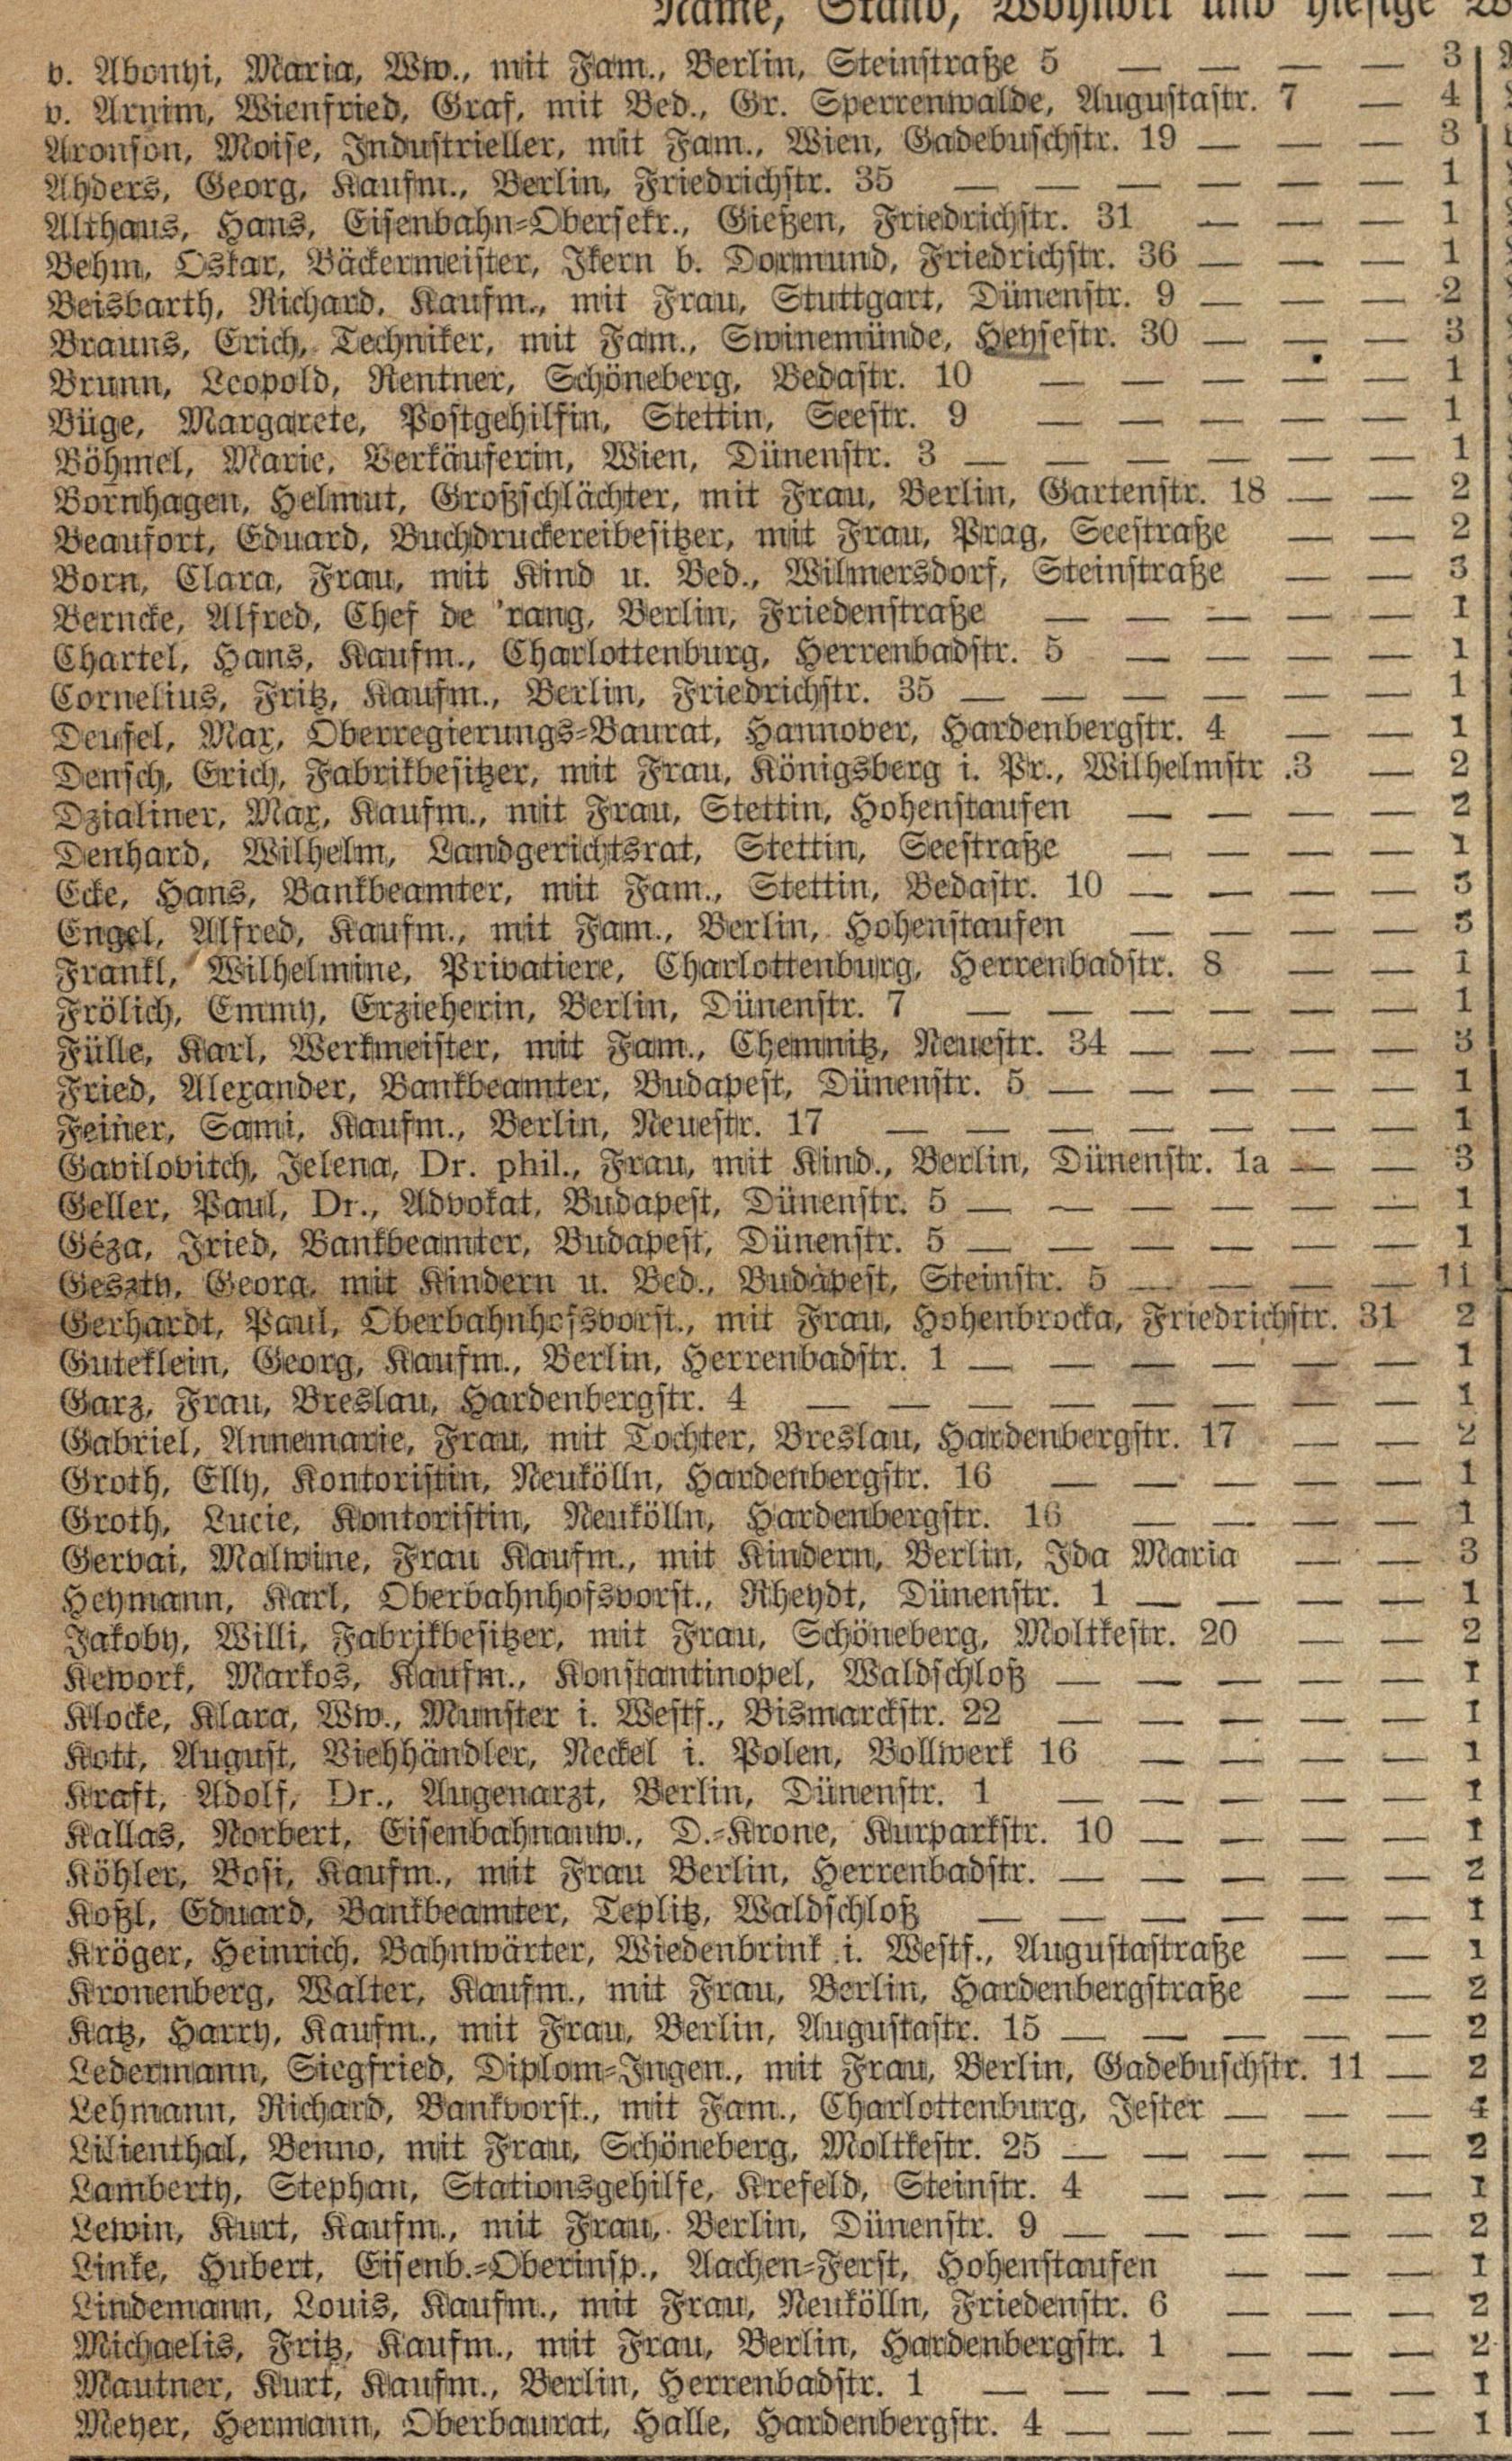v. Abonyi, Maria, Ww., mit Fam., Berlin, Steinstraße 5 | 3
v. Arnim, Wienfried, Graf, mit Bed., Gr. Sperrenwalde, Augustastr. 7 | 4
Aronson, Moise, Industrieller, mit Fam., Wien, Gadebuschstr. 19 | 3
Ahders, Georg, Kaufm., Berlin, Friedrichstr. 35 | 1
Althaus, Hans, Eisenbahn=Obersekr., Gießen, Friedrichstr. 31 | 1
Behm, Oskar, Bäckermeister, Ikern b. Dormund, Friedrichstr. 36 | 1
Beisbarth, Richard, Kaufm., mit Frau, Stuttgart, Dünenstr. 9 | 2
Brauns, Erich, Techniker, mit Fam., Swinemünde, Heysestr. 30 | 3
Brunn, Leopold, Rentner, Schöneberg, Bedastr. 10 | 1
Büge, Margarete, Postgehilfin, Stettin, Seestr. 9 | 1
Böhmel, Marie, Verkäuferin, Wien, Dünenstr. 3 | 1
Bornhagen, Helmut, Großschlächter, mit Frau, Berlin, Gartenstr. 18 | 2
Beaufort, Eduard, Buchdruckereibesitzer, mit Frau, Prag, Seestraße | 2
Born, Clara, Frau, mit Kind u. Bed., Wilmersdorf, Steinstraße | 3
Berncke, Alfred, Chef de 'rang, Berlin, Friedenstraße | 1
Chartel, Hans, Kaufm., Charlottenburg, Herrenbadstr. 5 | 1
Cornelius, Fritz, Kaufm., Berlin, Friedrichstr. 35 | 1
Deufel, Max, Oberregierungs=Baurat, Hannover, Hardenbergstr. 4 | 1
Densch, Erich, Fabrikbesitzer, mit Frau, Königsberg i. Pr., Wilhelmstr .3 | 2
Dzialiner, Max, Kaufm., mit Frau, Stettin, Hohenstaufen | 2
Denhard, Wilhelm, Landgerichtsrat, Stettin, Seestraße | 1
Ecke, Hans, Bankbeamter, mit Fam., Stettin, Bedastr. 10 | 3
Engel, Alfred, Kaufm., mit Fam., Berlin, Hohenstaufen | 3
Frankl, Wilhelmine, Privatiere, Charlottenburg, Herrenbadstr. 8 | 1
Frölich, Emmy, Erzieherin, Berlin, Dünenstr. 7 | 1
Fülle, Karl, Werkmeister, mit Fam., Chemnitz, Neuestr. 34 | 3
Fried, Alexander, Bankbeamter, Budapest, Dünenstr. 5 | 1
Feiner, Sami, Kaufm., Berlin, Neuestr. 17 | 1
Gavilovitch, Jelena, Dr. phil., Frau, mit Kind., Berlin, Dünenstr. 1a | 3
Geller, Paul, Dr., Advokat, Budapest, Dünenstr. 5 | 1
Geza, Iried, Bankbeamter, Budapest, Dünenstr. 5 | 1
Geszty, Georg, mit Kindern u. Bed., Budapest, Steinstr. 5 | 11
Gerhardt, Paul, Oberbahnhofsvorst., mit Frau, Hohenbrocka, Friedrichsr. 31 | 2
Guteklein, Georg, Kaufm., Berlin, Herrenbadstr. 1 | 1
Garz, Frau, Breslau, Hardenbergstr. 4 | 1
Gabriel, Annemarie, Frau, mit Tochter, Breslau, Hardenbergstr. 17 | 2
Groth, Elly, Kontoristin, Neukölln, Hardenbergstr. 16 | 1
Groth, Lucie, Kontoristin, Neukölln, Hardenbergstr. 16 | 1
Gervai, Malwine, Frau Kaufm., mit Kindern, Berlin, Ida Maria | 3
Heymann, Karl, Oberbahnhofsvorst., Rhendt, Dünenstr. 1 | 1
Jakoby, Willi, Fabrikbesitzer, mit Frau, Schöneberg, Moltkestr. 20 | 2
Kework, Markos, Kaufm., Konstantinopel, Waldschloß | 1
Klocke, Klara, Ww., Munster i. Westf., Bismarckstr. 22 | 1
Kott, August, Biehhändler, Neckel i. Polen, Vollwerk 16 | 1
Kraft, Adolf, Dr., Augenarzt, Berlin, Dünenstr. 1 | 1
Kallas, Norbert, Eisenbahnanw., D.=Krone, Kurparkstr. 10 | 1
Köhler, Bosi, Kaufm., mit Frau Berlin, Herrenbadstr. | 2
Koßl, Eduard, Bankbeamter, Teplitz, Waldschloß | 1
Kröger, Heinrich, Bahnwärter, Wiedenbrink i. Wests., Augustastraße | 1
Kronenberg, Walter, Kaufm., mit Frau, Berlin, Hardenbergstraße | 2
Katz, Harry, Kaufm., mit Frau, Berlin, Augustastr. 15 | 2
Ledermann, Siegfried, Diplom=Ingen., mit Frau, Berlin, Gadebuschstr. 11 | 2
Lehmann, Richard, Bankvorst., mit Fam., Charlottenburg, Jester | 4
Lelienthal, Benno, mit Frau, Schöneberg, Moltkestr. 25 | 2
Lamberty, Stephan, Stationsgehilfe, Krefeld, Steinstr. 4 | 1
Lewin, Kurt, Kaufm., mit Frau, Berlin, Dünenstr. 9 | 2
Linke, Hubert, Eisenb.=Oberinsp., Aachen=Ferst, Hohenstaufen | 1
Lindemann, Louis, Kaufm., mit Frau, Neukölln, Friedenstr. 6 | 2
Michaelis, Fritz, Kaufm., mit Frau, Berlin, Hardenbergstr. 1 | 2
Mautner, Kurt, Kaufm., Berlin, Herrenbadstr. 1 | 1
Meyer, Hermann, Oberbaurat, Halle, Hardenbergstr. 4 | 1
